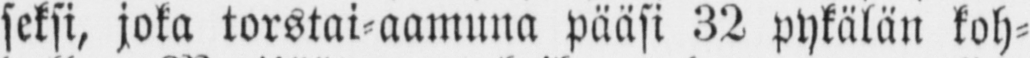seksi, joka torstai-aamuna pääsi 32 pykälän koh-
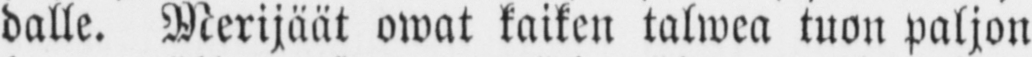dalle. Merijäät owat kaiken talwea tuon paljon
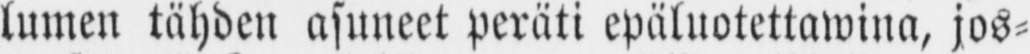lumen tähden asuneet peräti epäluotettawina, jos-
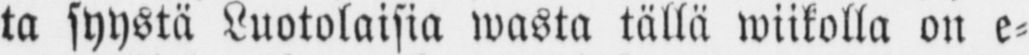ta syystä Luotolaisia wasta tällä wiikolla on e-
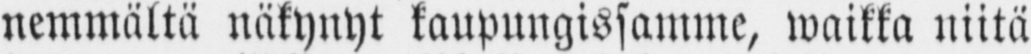nemmältä näkynyt kaupungissamme, waikka niitä
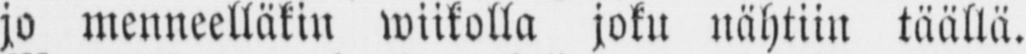jo menneelläkin wiikolla joku nähtiin täällä.
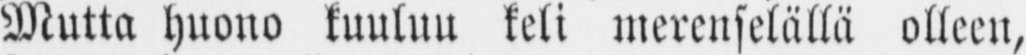Mutta huono kuuluu keli merenselällä olleen,
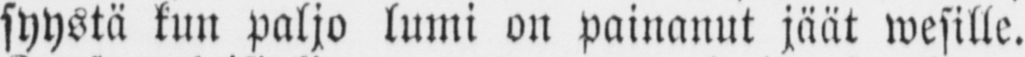syystä kun paljo lumi on painanut jäät wesille.
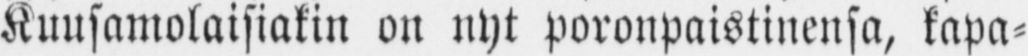Kuusamolaisiakin on nyt poronpaistinensa, kapa-
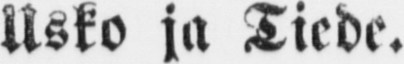Usko ja Tiede.
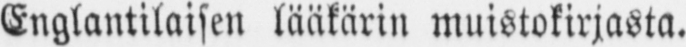Englantilaisen lääkärin muistokirjasta.
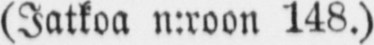(Jatkoa n:roon 148.)
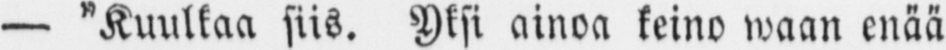— ”Kuulkaa siis. Yksi ainoa keino waan enää
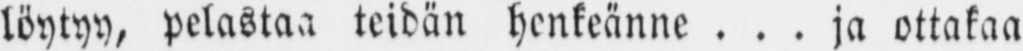löytyy, pelastaa teidän henkeänne ... ja ottakaa
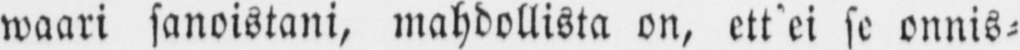waari sanoistani, mahdollista on, ett’ei se onnis-
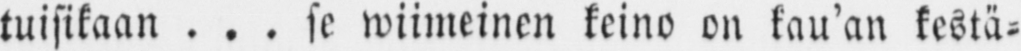tuisikaan . . . se wiimeinen keino on kau’an kestä-
